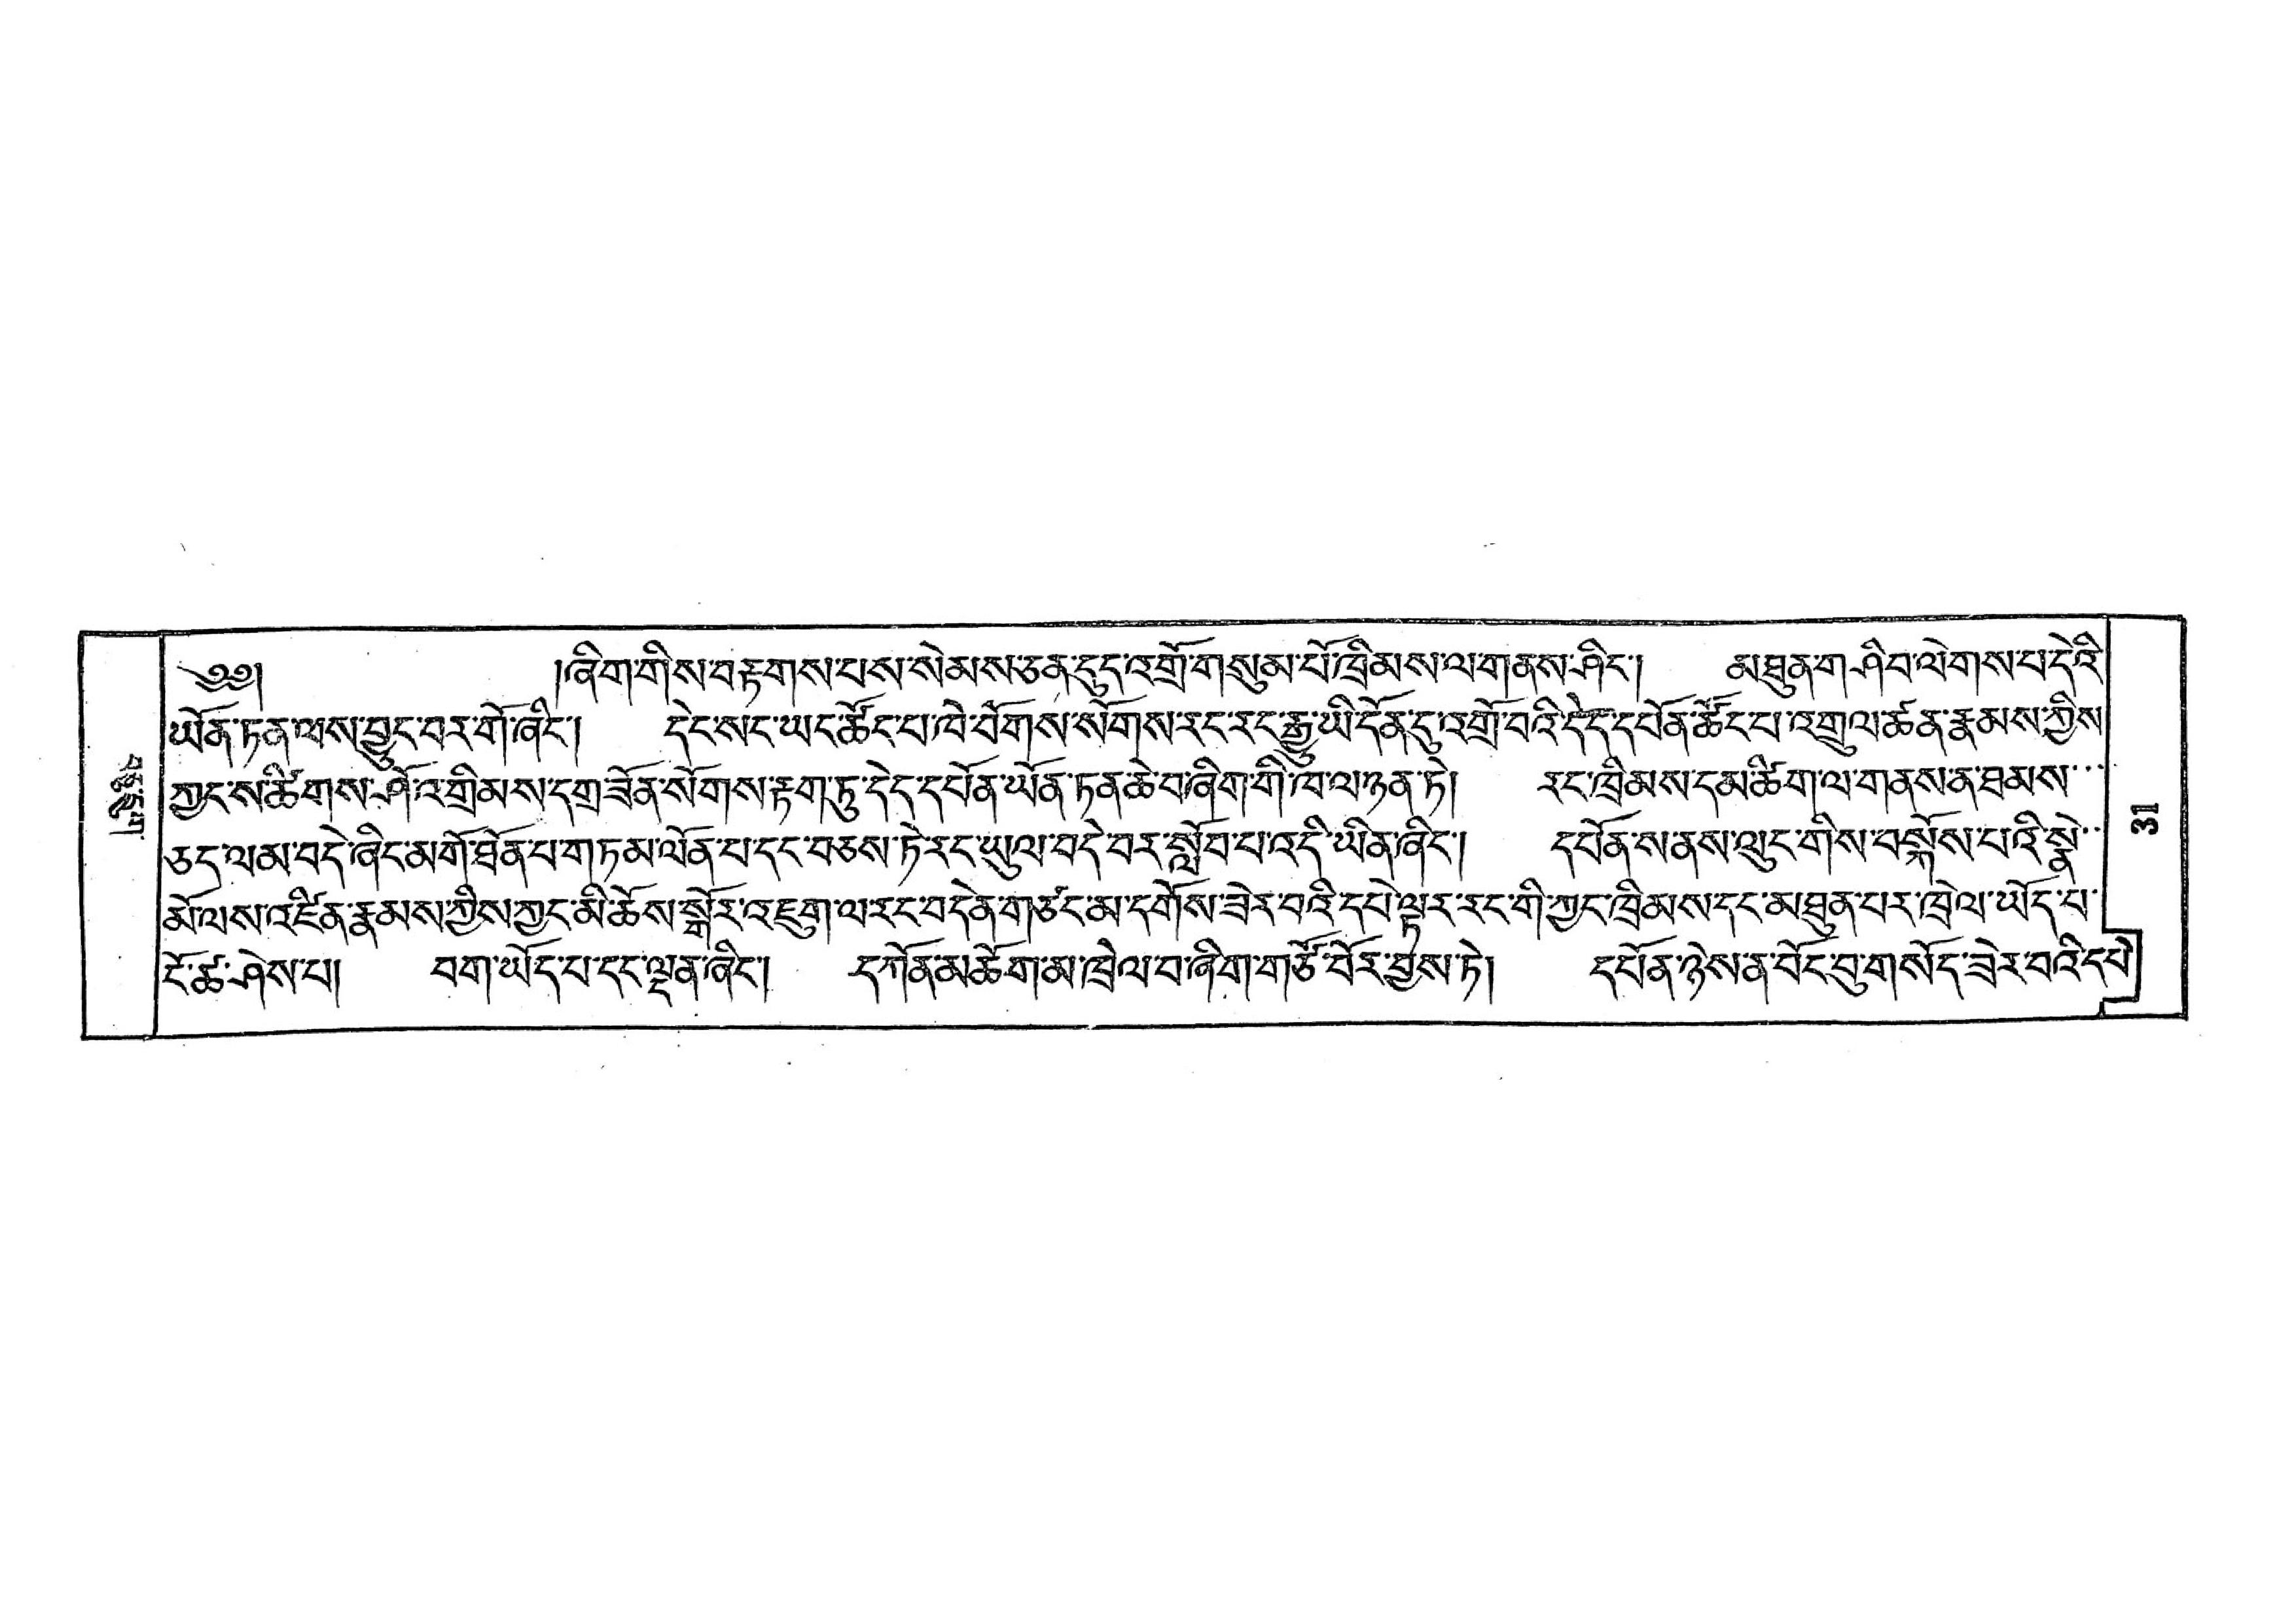བཅུ་དྲུག་
༄༅། །ཞིག་གིས་བརྟགས་པས་སེམས་ཅན་དུད་འགྲོ་གསུམ་པོ་ཁྲིམས་ལ་གནས་ཤིང་། མཐུན་གཤིབ་ལེགས་པ་དེའི་
ཡོན་ཏན་ལས་བྱུང་བར་གོ་ཞིང་། དེང་སང་ལ་ཚོང་པ་ཁེ་བོགས་སོགས་རང་རང་རྒྱུ་ཡི་དོན་དུ་འགྲོ་བའི་དེད་དཔོན་ཚོང་པ་འགྲུལ་ཚན་རྣམས་ཀྱིས་
ཀྱང་ས་ཚིགས་ཤོ་འགྲིམས་དགྲ་ཟོན་སོགས་རྟག་ཏུ་དེད་དཔོན་ཡོན་ཏན་ཆེ་བ་ཞིག་གི་ཁ་ལ་ཉན་ཏེ། རང་ཁྲིམས་དམ་ཚིག་ལ་གནས་ན་ཐམས་་་
ཅད་ལམ་བདེ་ཞིང་མགོ་ཐོན་པ་གཏམ་ལོན་པ་དང་བཅས་ཏེ་རང་ཡུལ་བདེ་བར་སློབ་པ་འདི་ཡིན་ཞིང་། དཔོན་ས་ནས་ལུང་གིས་བསྐོས་པའི་སྣེ་་
མོ་ལས་འཛིན་རྣམས་ཀྱིས་ཀྱང་མི་ཆོས་སྒོར་འཇུག་ལ་རང་བདེན་གཙང་མ་དགོས་ཟེར་བའི་དཔེ་ལྟར་རང་གི་ཀྱང་ཁྲིམས་དང་མཐུན་པར་ཁྲེལ་ཡོད་པ་
ངོ་ཚ་ཤེས་པ། བག་ཡོད་པ་དང་ལྡན་ཞིང་། དཀོན་མཆོག་མ་ཁྲེལ་བ་ཞིག་གཙོ་བོར་བྱས་ཏེ། དཔོན་ཉེས་ན་བོང་བུ་གསོད་ཟེར་བའི་དཔེ་
